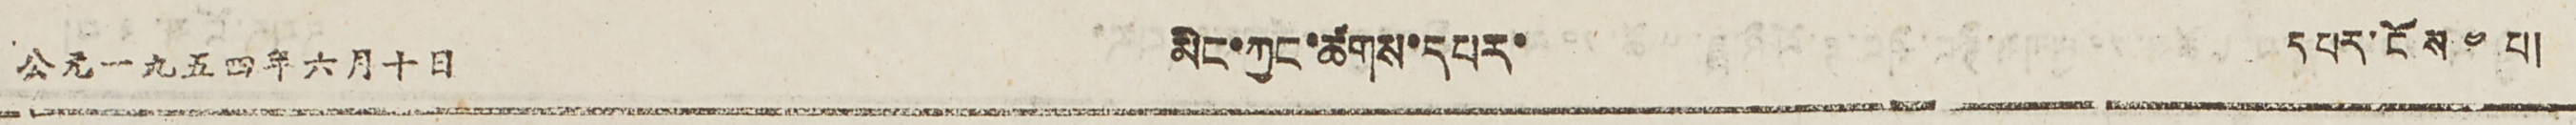公元一九五四年六月十日 མིང་ཀྱང་ཚགས་དཔར་ དཔར་ངོས  ༤ པ།
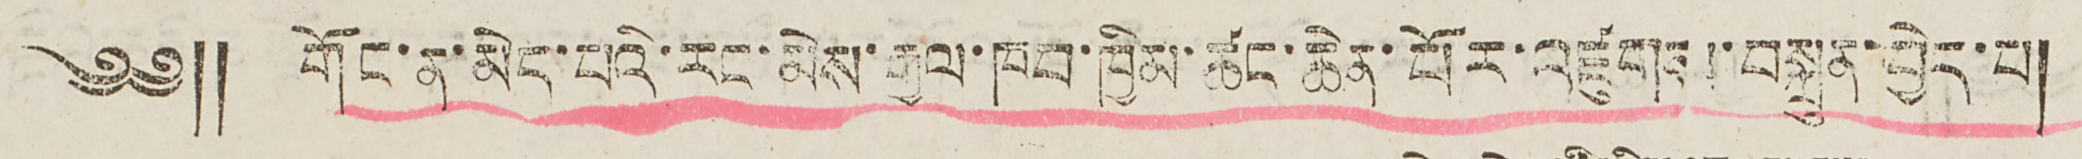༄༅༎ གོང་ན་མེད་པའི་རང་མེས་རྒྱལ་ཁབ་ཁྱིམ་ཚང་ཆེན་པོར་འཛུགས་བསྐྲུན་བྱེད་པ།
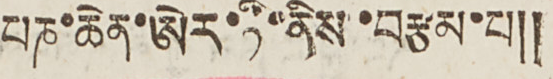པཎ་ཆེན་ཨེར་ཏི་ནིས་བརྩམ་པ༎
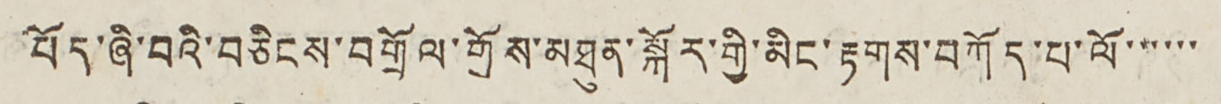བོད་ཞི་བའི་བཅིངས་བགྲོལ་གྲོས་མཐུན་སྐོར་གྱི་མིང་རྟགས་བཀོད་པ་ལོ་་་་་་
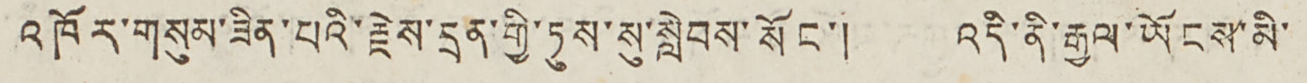འཁོར་གསུམ་ཟིན་པའི་རྗེས་དྲན་གྱི་ཏུས་སུ་སླེབས་སོང་། འདི་ནི་རྒྱལ་ཡོངས་མི་
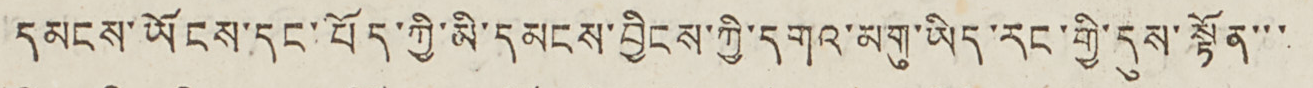དམངས་ཡོངས་དང་བོད་ཀྱི་མི་དམངས་བྱིངས་ཀྱི་དགའ་མགུ་ཡིད་རང་གྱི་དུས་སྟོན་་་
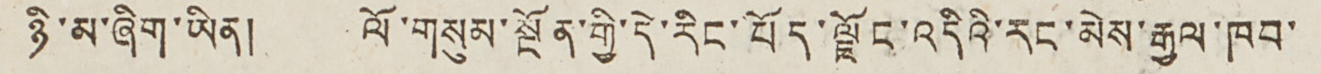ཉི་མ་ཞིག་ཡིན། ལོ་གསུམ་སྔོན་གྱི་དེ་རིང་བོད་ལྗོང་འདིའི་རང་མེས་རྒྱལ་ཁབ་
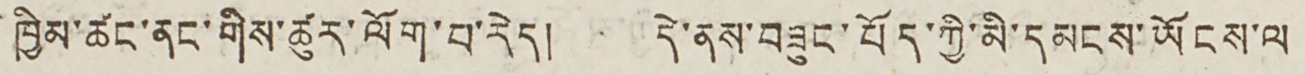ཁྱིམ་ཚང་ནང་གིས་ཚུར་ལོག་པ་རེད། དེ་ནས་བཟུང་བོད་ཀྱི་མི་དམངས་ཡོངས་ལ
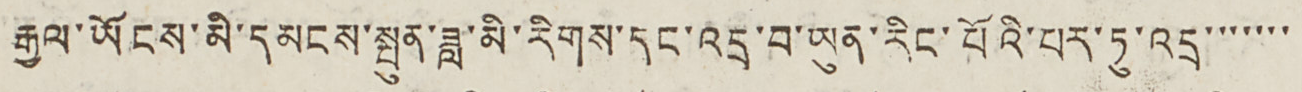རྒྱལ་ཡོངས་མི་དམངས་སྤུན་ཟླ་མི་རིགས་དང་འདྲ་བ་ཡུན་རིང་པོའི་པར་ཏུ་འདྲ་་་་་་་
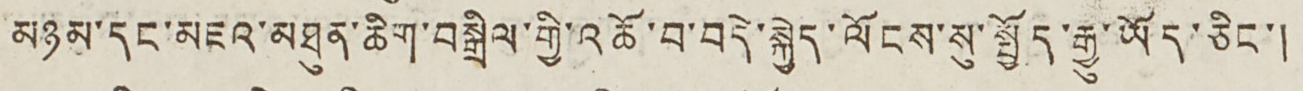མཉམ་དང་མཇའ་མཐུན་ཆིག་བསྒྲིལ་གྱི་འཆོ་བ་བདེ་སྐྱེད་ལོངས་སུ་སྤྱོད་རྒྱུ་ཡོད་ཅིང་།
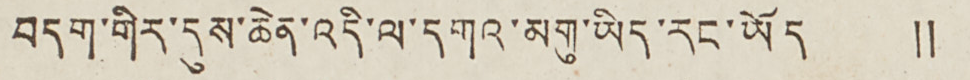བདག་གིར་དུས་ཆེན་འདི་ལ་དགའ་མགུ་ཡིད་རང་ཡོད ༎
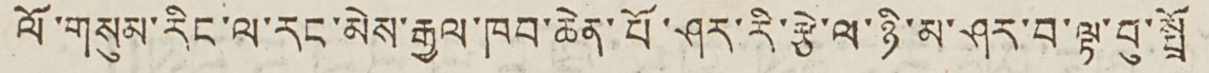ལོ་གསུམ་རིང་ལ་རང་མེས་རྒྱལ་ཁབ་ཆེན་པོ་ཤར་རི་རྩེ་ལ་ཉི་མ་ཤར་བ་ལྟ་བུ་སྤྲོ
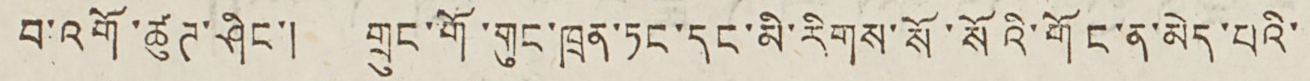བ་འགོ་ཚུཊ་ཤིང་། གྲུང་གོ་གུང་ཁྲན་ཏང་དང་མི་རིགས་སོ་སོའི་གོང་ན་མེད་པའི་
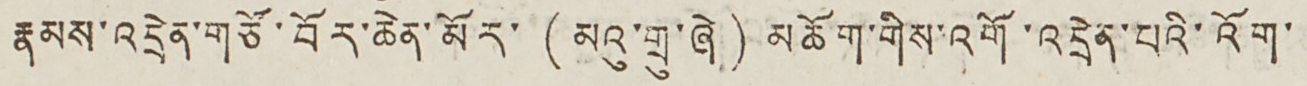རྣམས་འདྲེན་གཙོ་བོར་ཆེན་མོར་ ( མའུ་གྲུ་ཞེ ) མཆོག་གིས་འགོ་འདྲེན་པའི་འོག་
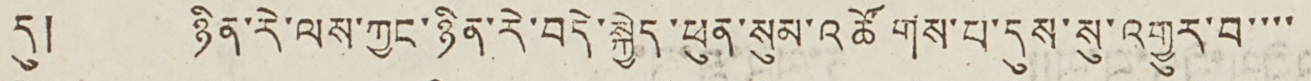དུ། ཉིན་རེ་ལས་ཀྱང་ཉིན་རེ་བདེ་སྐྱེད་ཕུན་སུམ་འཚོགས་པ་དུས་སུ་འགྱུར་བ་་་་
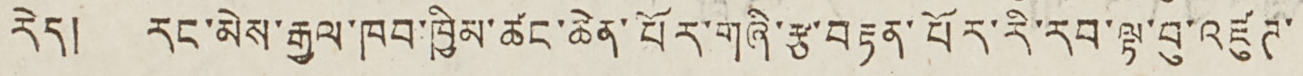རེད། རང་མེས་རྒྱལ་ཁབ་ཁྱིམ་ཚང་ཆེན་པོར་གཞི་རྩ་བརྟན་པོར་རི་རབ་ལྟ་བུ་འཛུཊ་
